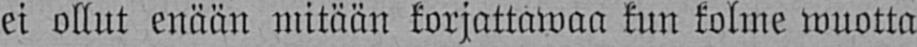ei ollut enään mitään korjattawaa kun kolme wuotta
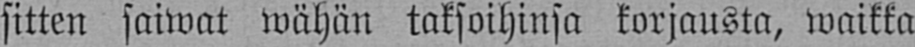sitten saiwat wähän taksoihinsa korjausta, waikka
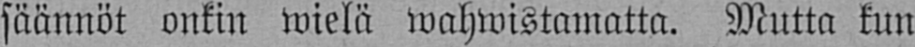säännöt onkin wielä wahwistamatta. Mutta kun
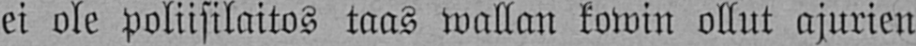ei ole poliisilaitos taas wallan kowin ollut ajurien
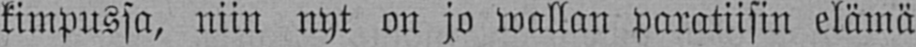kimpussa, niin nyt on jo wallan paratiisin elämä
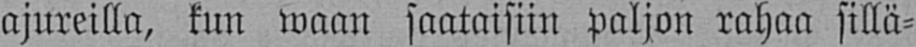ajureilla, kun waan saataisiin paljon rahaa sillä-
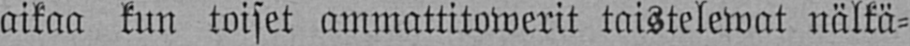aikaa kun toiset ammattitowerit taistelewat nälkä-
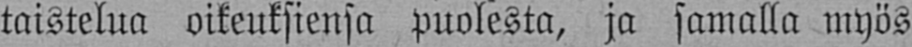taistelua oikeuksiensa puolesta, ja samalla myös
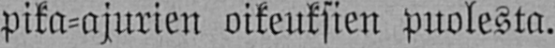pika-ajurien oikeuksien puolesta.
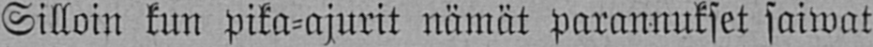Silloin kun pika-ajurit nämät parannukset saiwat
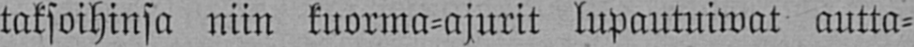taksoihinsa niin kuorma-ajurit lupautuiwat autta-
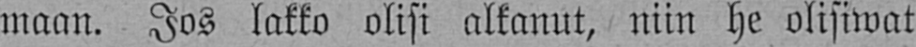maan. Jos lakko olisi alkanut, niin he olisiwat
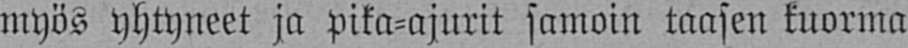myös yhtyneet ja pika-ajurit samoin taasen kuorma
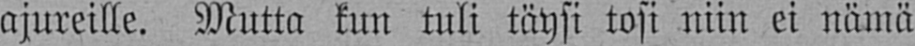ajureille. Mutta kun tuli täysi tosi niin ei nämä
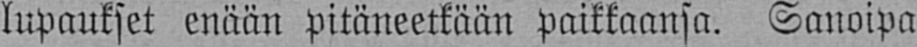lupaukset enään pitäneetkään paikkaansa. Sanoipa
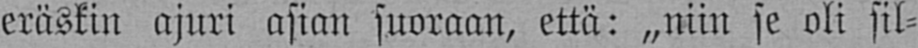eräskin ajuri asian suoraan, että: „niin se oli sil-
